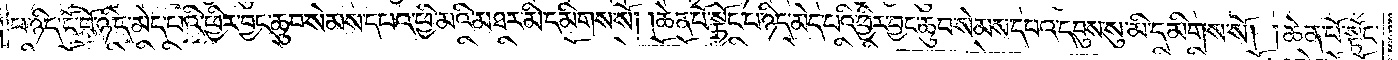པ་ཉིད་ངོ་བོ་ཉིད་མེད་པའི་ཕྱིར་བྱང་ཆུབ་སེམས་དཔའ་ཕྱི་མའི་མཐར་མི་དམིགས་སོ། །ཆེན་པོ་སྟོང་པ་ཉིད་མེད་པའི་ཕྱིར་བྱང་ཆུབ་སེམས་དཔའ་དབུས་སུ་མི་དམིགས་སོ། །ཆེན་པོ་སྟོང་
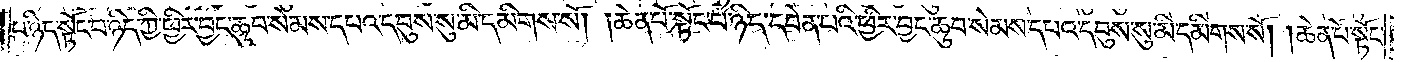པ་ཉིད་སྟོང་པ་ཉིད་ཀྱི་ཕྱིར་བྱང་ཆུབ་སེམས་དཔའ་དབུས་སུ་མི་དམིགས་སོ། །ཆེན་པོ་སྟོང་པ་ཉིད་དབེན་པའི་ཕྱིར་བྱང་ཆུབ་སེམས་དཔའ་དབུས་སུ་མི་དམིགས་སོ། །ཆེན་པོ་སྟོང་
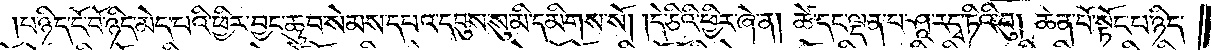པ་ཉིད་ངོ་བོ་ཉིད་མེད་པའི་ཕྱིར་བྱང་ཆུབ་སེམས་དཔའ་དབུས་སུ་མི་དམིགས་སོ། །དེ་ཅིའི་ཕྱིར་ཞེ་ན། ཚེ་དང་ལྡན་པ་ཤཱ་རདྭ་ཏིའི་བུ། ཆེན་པོ་སྟོང་པ་ཉིད་
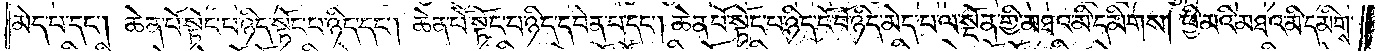མེད་པ་དང༌། ཆེན་པོ་སྟོང་པ་ཉིད་སྟོང་པ་ཉིད་དང༌། ཆེན་པོ་སྟོང་པ་ཉིད་དབེན་པ་དང༌། ཆེན་པོ་སྟོང་པ་ཉིད་ངོ་བོ་ཉིད་མེད་པ་ལ་སྔོན་གྱི་མཐའ་མི་དམིགས་ཕྱི་མའི་མཐའ་མི་དམིགས།
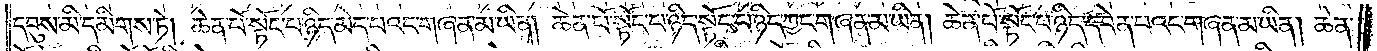དབུས་མི་དམིགས་ཏེ། ཆེན་པོ་སྟོང་པ་ཉིད་མེད་པའང་གཞན་མ་ཡིན། ཆེན་པོ་སྟོང་པ་ཉིད་སྟོང་པ་ཉིད་ཀྱང་གཞན་མ་ཡིན། ཆེན་པོ་སྟོང་པ་ཉིད་དབེན་པའང་གཞན་མ་ཡིན། ཆེན་
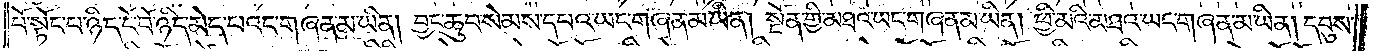པོ་སྟོང་པ་ཉིད་ངོ་བོ་ཉིད་མེད་པའང་གཞན་མ་ཡིན། བྱང་ཆུབ་སེམས་དཔའ་ཡང་གཞན་མ་ཡིན། སྔོན་གྱི་མཐའ་ཡང་གཞན་མ་ཡིན། ཕྱི་མའི་མཐའ་ཡང་གཞན་མ་ཡིན། དབུས་
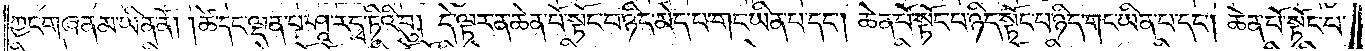ཀྱང་གཞན་མ་ཡིན་ནོ། །ཚེ་དང་ལྡན་པ་ཤཱ་རདྭ་ཏིའི་བུ། དེ་ལྟར་ན་ཆེན་པོ་སྟོང་པ་ཉིད་མེད་པ་གང་ཡིན་པ་དང༌། ཆེན་པོ་སྟོང་པ་ཉིད་སྟོང་པ་ཉིད་གང་ཡིན་པ་དང༌། ཆེན་པོ་སྟོང་པ་
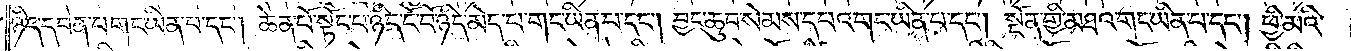ཉིད་དབེན་པ་གང་ཡིན་པ་དང༌། ཆེན་པོ་སྟོང་པ་ཉིད་ངོ་བོ་ཉིད་མེད་པ་གང་ཡིན་པ་དང༌། བྱང་ཆུབ་སེམས་དཔའ་གང་ཡིན་པ་དང༌། སྔོན་གྱི་མཐའ་གང་ཡིན་པ་དང༌། ཕྱི་མའི་
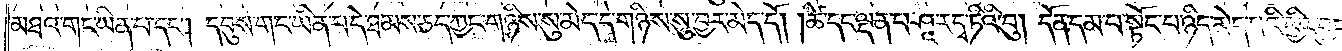མཐའ་གང་ཡིན་པ་དང༌། དབུས་གང་ཡིན་པ་དེ་ཐམས་ཅད་ཀྱང་གཉིས་སུ་མེད་དེ་གཉིས་སུ་བྱར་མེད་དོ། །ཚེ་དང་ལྡན་པ་ཤཱ་རདྭ་ཏིའི་བུ། དོན་དམ་པ་སྟོང་པ་ཉིད་མེད་པའི་ཕྱིར་བྱང་
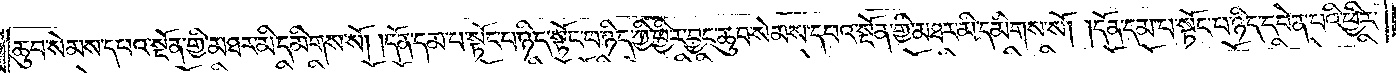ཆུབ་སེམས་དཔའ་སྔོན་གྱི་མཐར་མི་དམིགས་སོ། །དོན་དམ་པ་སྟོང་པ་ཉིད་སྟོང་པ་ཉིད་ཀྱི་ཕྱིར་བྱང་ཆུབ་སེམས་དཔའ་སྔོན་གྱི་མཐར་མི་དམིགས་སོ། །དོན་དམ་པ་སྟོང་པ་ཉིད་དབེན་པའི་ཕྱིར་
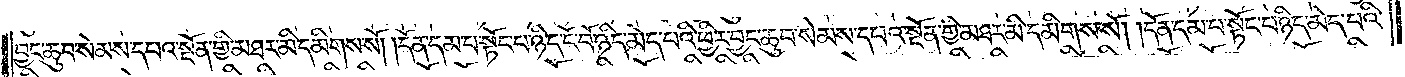བྱང་ཆུབ་སེམས་དཔའ་སྔོན་གྱི་མཐར་མི་དམིགས་སོ། །དོན་དམ་པ་སྟོང་པ་ཉིད་ངོ་བོ་ཉིད་མེད་པའི་ཕྱིར་བྱང་ཆུབ་སེམས་དཔའ་སྔོན་གྱི་མཐར་མི་དམིགས་སོ། །དོན་དམ་པ་སྟོང་པ་ཉིད་མེད་པའི་
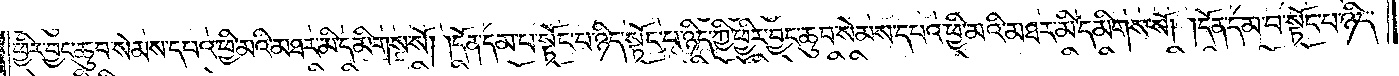ཕྱིར་བྱང་ཆུབ་སེམས་དཔའ་ཕྱི་མའི་མཐར་མི་དམིགས་སོ། །དོན་དམ་པ་སྟོང་པ་ཉིད་སྟོང་པ་ཉིད་ཀྱི་ཕྱིར་བྱང་ཆུབ་སེམས་དཔའ་ཕྱི་མའི་མཐར་མི་དམིགས་སོ། །དོན་དམ་པ་སྟོང་པ་ཉིད་
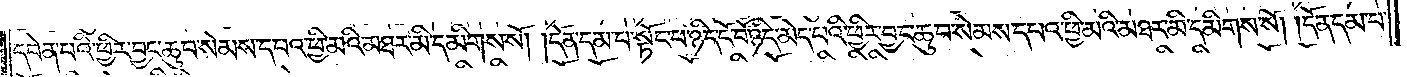དབེན་པའི་ཕྱིར་བྱང་ཆུབ་སེམས་དཔའ་ཕྱི་མའི་མཐར་མི་དམིགས་སོ། །དོན་དམ་པ་སྟོང་པ་ཉིད་ངོ་བོ་ཉིད་མེད་པའི་ཕྱིར་བྱང་ཆུབ་སེམས་དཔའ་ཕྱི་མའི་མཐར་མི་དམིགས་སོ། །དོན་དམ་པ་
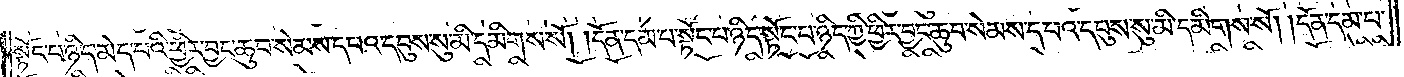སྟོང་པ་ཉིད་མེད་པའི་ཕྱིར་བྱང་ཆུབ་སེམས་དཔའ་དབུས་སུ་མི་དམིགས་སོ། །དོན་དམ་པ་སྟོང་པ་ཉིད་སྟོང་པ་ཉིད་ཀྱི་ཕྱིར་བྱང་ཆུབ་སེམས་དཔའ་དབུས་སུ་མི་དམིགས་སོ། །དོན་དམ་པ་
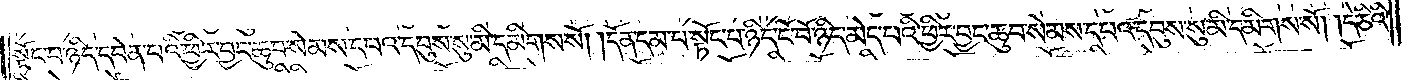སྟོང་པ་ཉིད་དབེན་པའི་ཕྱིར་བྱང་ཆུབ་སེམས་དཔའ་དབུས་སུ་མི་དམིགས་སོ། །དོན་དམ་པ་སྟོང་པ་ཉིད་ངོ་བོ་ཉིད་མེད་པའི་ཕྱིར་བྱང་ཆུབ་སེམས་དཔའ་དབུས་སུ་མི་དམིགས་སོ། །དེ་ཅིའི་
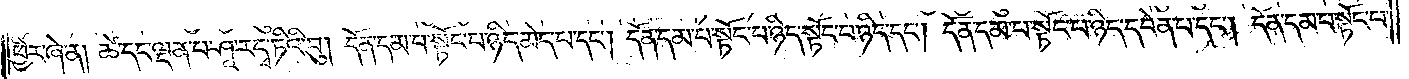ཕྱིར་ཞེ་ན། ཚེ་དང་ལྡན་པ་ཤཱ་རདྭ་ཏིའི་བུ། དོན་དམ་པ་སྟོང་པ་ཉིད་མེད་པ་དང༌། དོན་དམ་པ་སྟོང་པ་ཉིད་སྟོང་པ་ཉིད་དང༌། དོན་དམ་པ་སྟོང་པ་ཉིད་དབེན་པ་དང༌། དོན་དམ་པ་སྟོང་པ་
